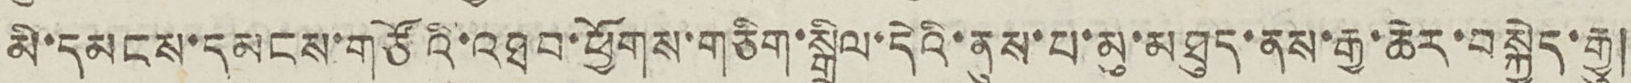མི་དམངས་དམངས་གཙོའི་འཐབ་ཕྱོགས་གཅིག་སྒྲིལ་དེའི་ནུས་པ་མུ་མཐུད་ནས་རྒྱ་ཆེར་བསྐྱེད་རྒྱུ།
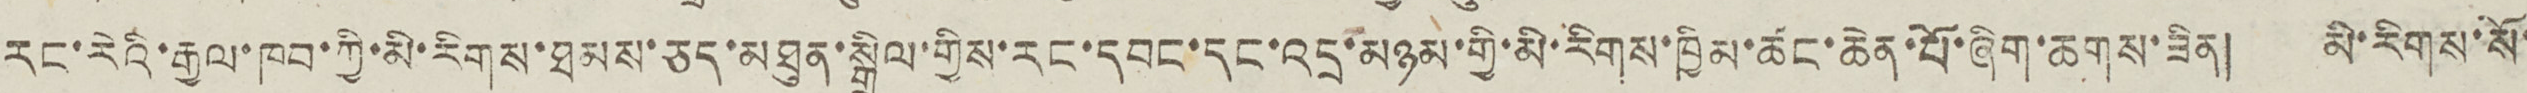རང་རེའི་རྒྱལ་ཁབ་ཀྱི་མི་རིགས་ཐམས་ཅད་མཐུན་སྒྲིལ་གྱིས་རང་དབང་དང་འདྲ་མཉམ་གྱི་མི་རིགས་ཁྱིམ་ཚང་ཆེན་པོ་ཞིག་ཆགས་ཟིན། མི་རིགས་སོ་
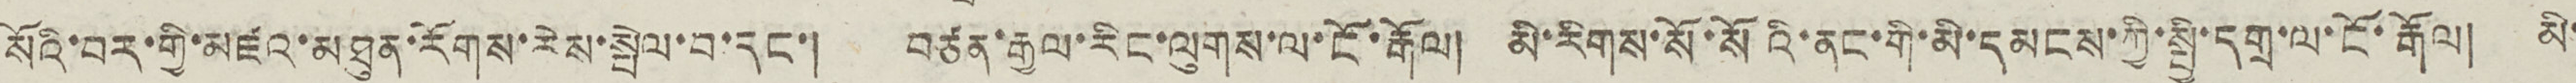སོའི་བར་གྱི་མཛའ་མཐུན་རོགས་རེས་སྤེལ་བ་དང་། བཙན་རྒྱལ་རིང་ལུགས་ལ་ངོ་རྒོལ། མི་རིགས་སོ་སོའི་ནང་གི་མི་དམངས་ཀྱི་སྤྱི་དགྲ་ལ་ངོ་རྒོལ། མི་
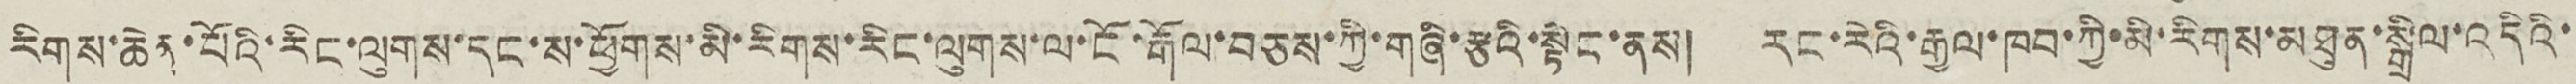རིགས་ཆེན་པོའི་རིང་ལུགས་དང་ས་ཕྱོགས་མི་རིགས་རིང་ལུགས་ལ་ངོ་རྒོལ་བཅས་ཀྱི་གཞི་རྩའི་སྟེང་ནས། རང་རེའི་རྒྱལ་ཁབ་ཀྱི་མི་རིགས་མཐུན་སྒྲིལ་འདིའི་
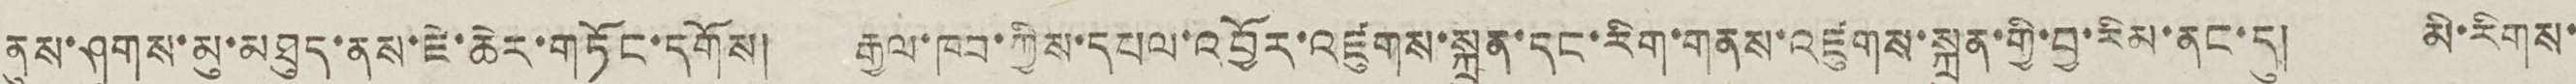ནུས་ཤུགས་མུ་མཐུད་ནས་ཇེ་ཆེར་གཏོང་དགོས། རྒྱལ་ཁབ་ཀྱིས་དཔལ་འབྱོར་འཛུགས་སྐྲུན་དང་རིག་གནས་འཛུགས་སྐྲུན་གྱི་བྱ་རིམ་ནང་དུ། མི་རིགས་
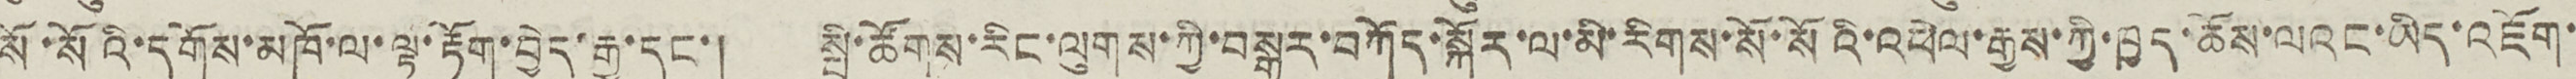སོ་སོའི་དགོས་མཁོ་ལ་ལྟ་རྟོག་བྱེད་རྒྱུ་དང་། སྤྱི་ཚོགས་རིང་ལུགས་ཀྱི་བསྒྱུར་བཀོད་སྒོར་ལ་མི་རིགས་སོ་སོའི་འཕེལ་རྒྱས་ཀྱི་ཁྱད་ཆོས་ལའང་ཡིད་འཇོག་
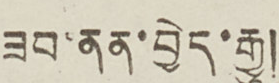ཟབ་ནན་བྱེད་རྒྱུ།
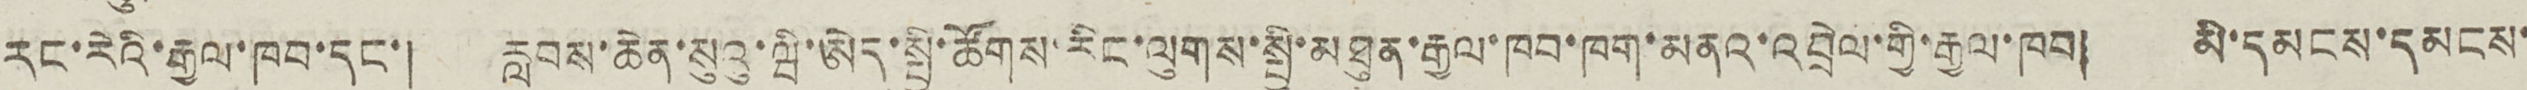རང་རེའི་རྒྱལ་ཁབ་དང་། རླབས་ཆེན་སུའུ་ཝི་ཨེད་སྤྱི་ཚོགས་རིང་ལུགས་སྤྱི་མཐུན་རྒྱལ་ཁབ་ཁག་མནའ་འབྲེལ་གྱི་རྒྱལ་ཁབ། མི་དམངས་དམངས་
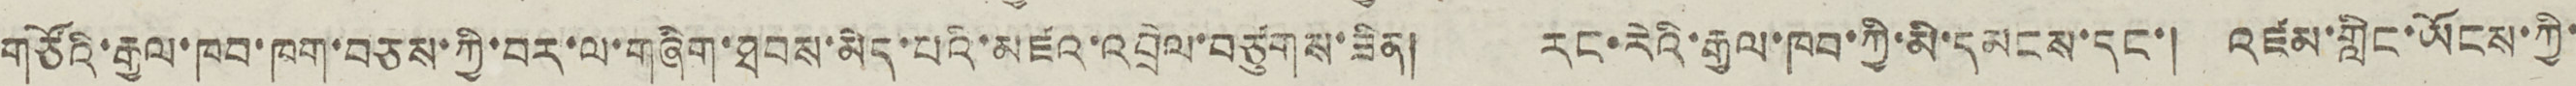གཙོའི་རྒྱལ་ཁབ་ཁག་བཅས་ཀྱི་བར་ལ་གཞིག་ཐབས་མེད་པའི་མཛའ་འབྲེལ་བཙུགས་ཟིན། རང་རེའི་རྒྱལ་ཁབ་ཀྱི་མི་དམངས་དང་། འཛམ་གླིང་ཡོངས་ཀྱི་
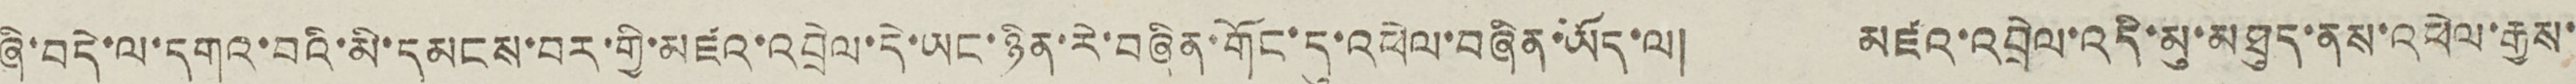ཞི་བདེ་ལ་དགའ་བའི་མི་དམངས་བར་གྱི་མཛའ་འབྲེལ་དེ་ཡང་ཉིན་རེ་བཞིན་གོང་དུ་འཕེལ་བཞིན་ཡོད་ལ། མཛའ་འབྲེལ་འདི་མུ་མཐུད་ནས་འཕེལ་རྒྱས་
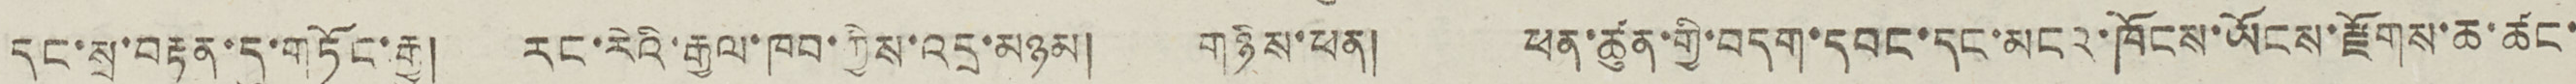དང་སྲ་བརྟན་དུ་གཏོང་རྒྱུ། རང་རེའི་རྒྱལ་ཁབ་ཀྱིས་འདྲ་མཉམ། གཉིས་ཕན། ཕན་ཚུན་གྱི་བདག་དབང་དང་མངའ་ཁོངས་ཡོངས་རྫོགས་ཆ་ཚང་
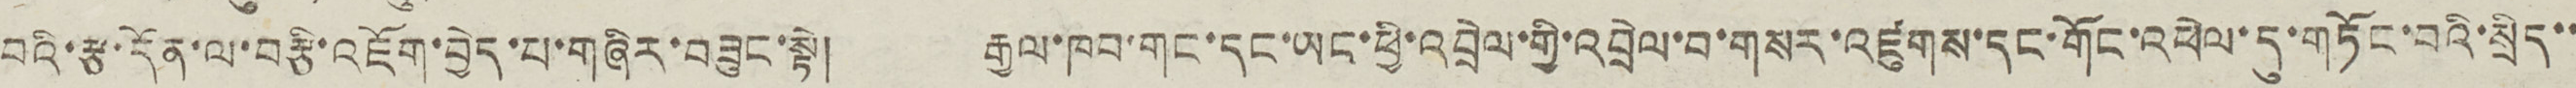བའི་རྩ་དོན་ལ་བརྩི་འཇོག་བྱེད་པ་གཞིར་བཟུང་སྟེ། རྒྱལ་ཁབ་གང་དང་ཡང་ཕྱི་འབྲེལ་གྱི་འབྲེལ་བ་གསར་འཛུགས་དང་གོང་འཕེལ་དུ་གཏོང་བའི་སྲིད་་
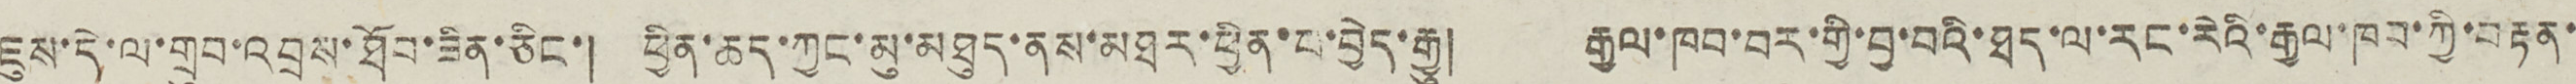ཇུས་དེ་ལ་གྲུབ་འབྲས་ཐོབ་ཟིན་ཅིང་། ཕྱིན་ཆད་ཀྱང་མུ་མཐུད་ནས་མཐར་ཕྱིན་པ་བྱེད་རྒྱུ། རྒྱལ་ཁབ་བར་གྱི་བྱ་བའི་ཐད་ལ་རང་རེའི་རྒྱལ་ཁབ་ཀྱི་བརྟན་
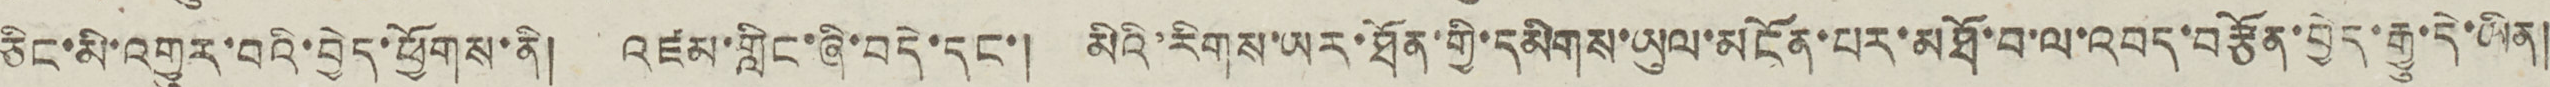ཅིང་མི་འགྱུར་བའི་བྱེད་ཕྱོགས་ནི། འཛམ་གླིང་ཞི་བདེ་དང་། མིའི་རིགས་ཡར་ཐོན་གྱི་དམིགས་ཡུལ་མངོན་པར་མཐོ་བ་ལ་འབད་བརྩོན་བྱེད་རྒྱུ་དེ་ཡིན།
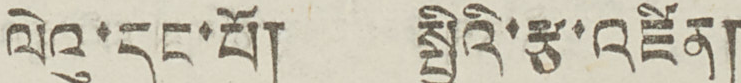ལེའུ་དང་པོ། སྤྱིའི་རྩ་འཛིན།
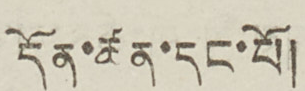དོན་ཚན་དང་པོ།
